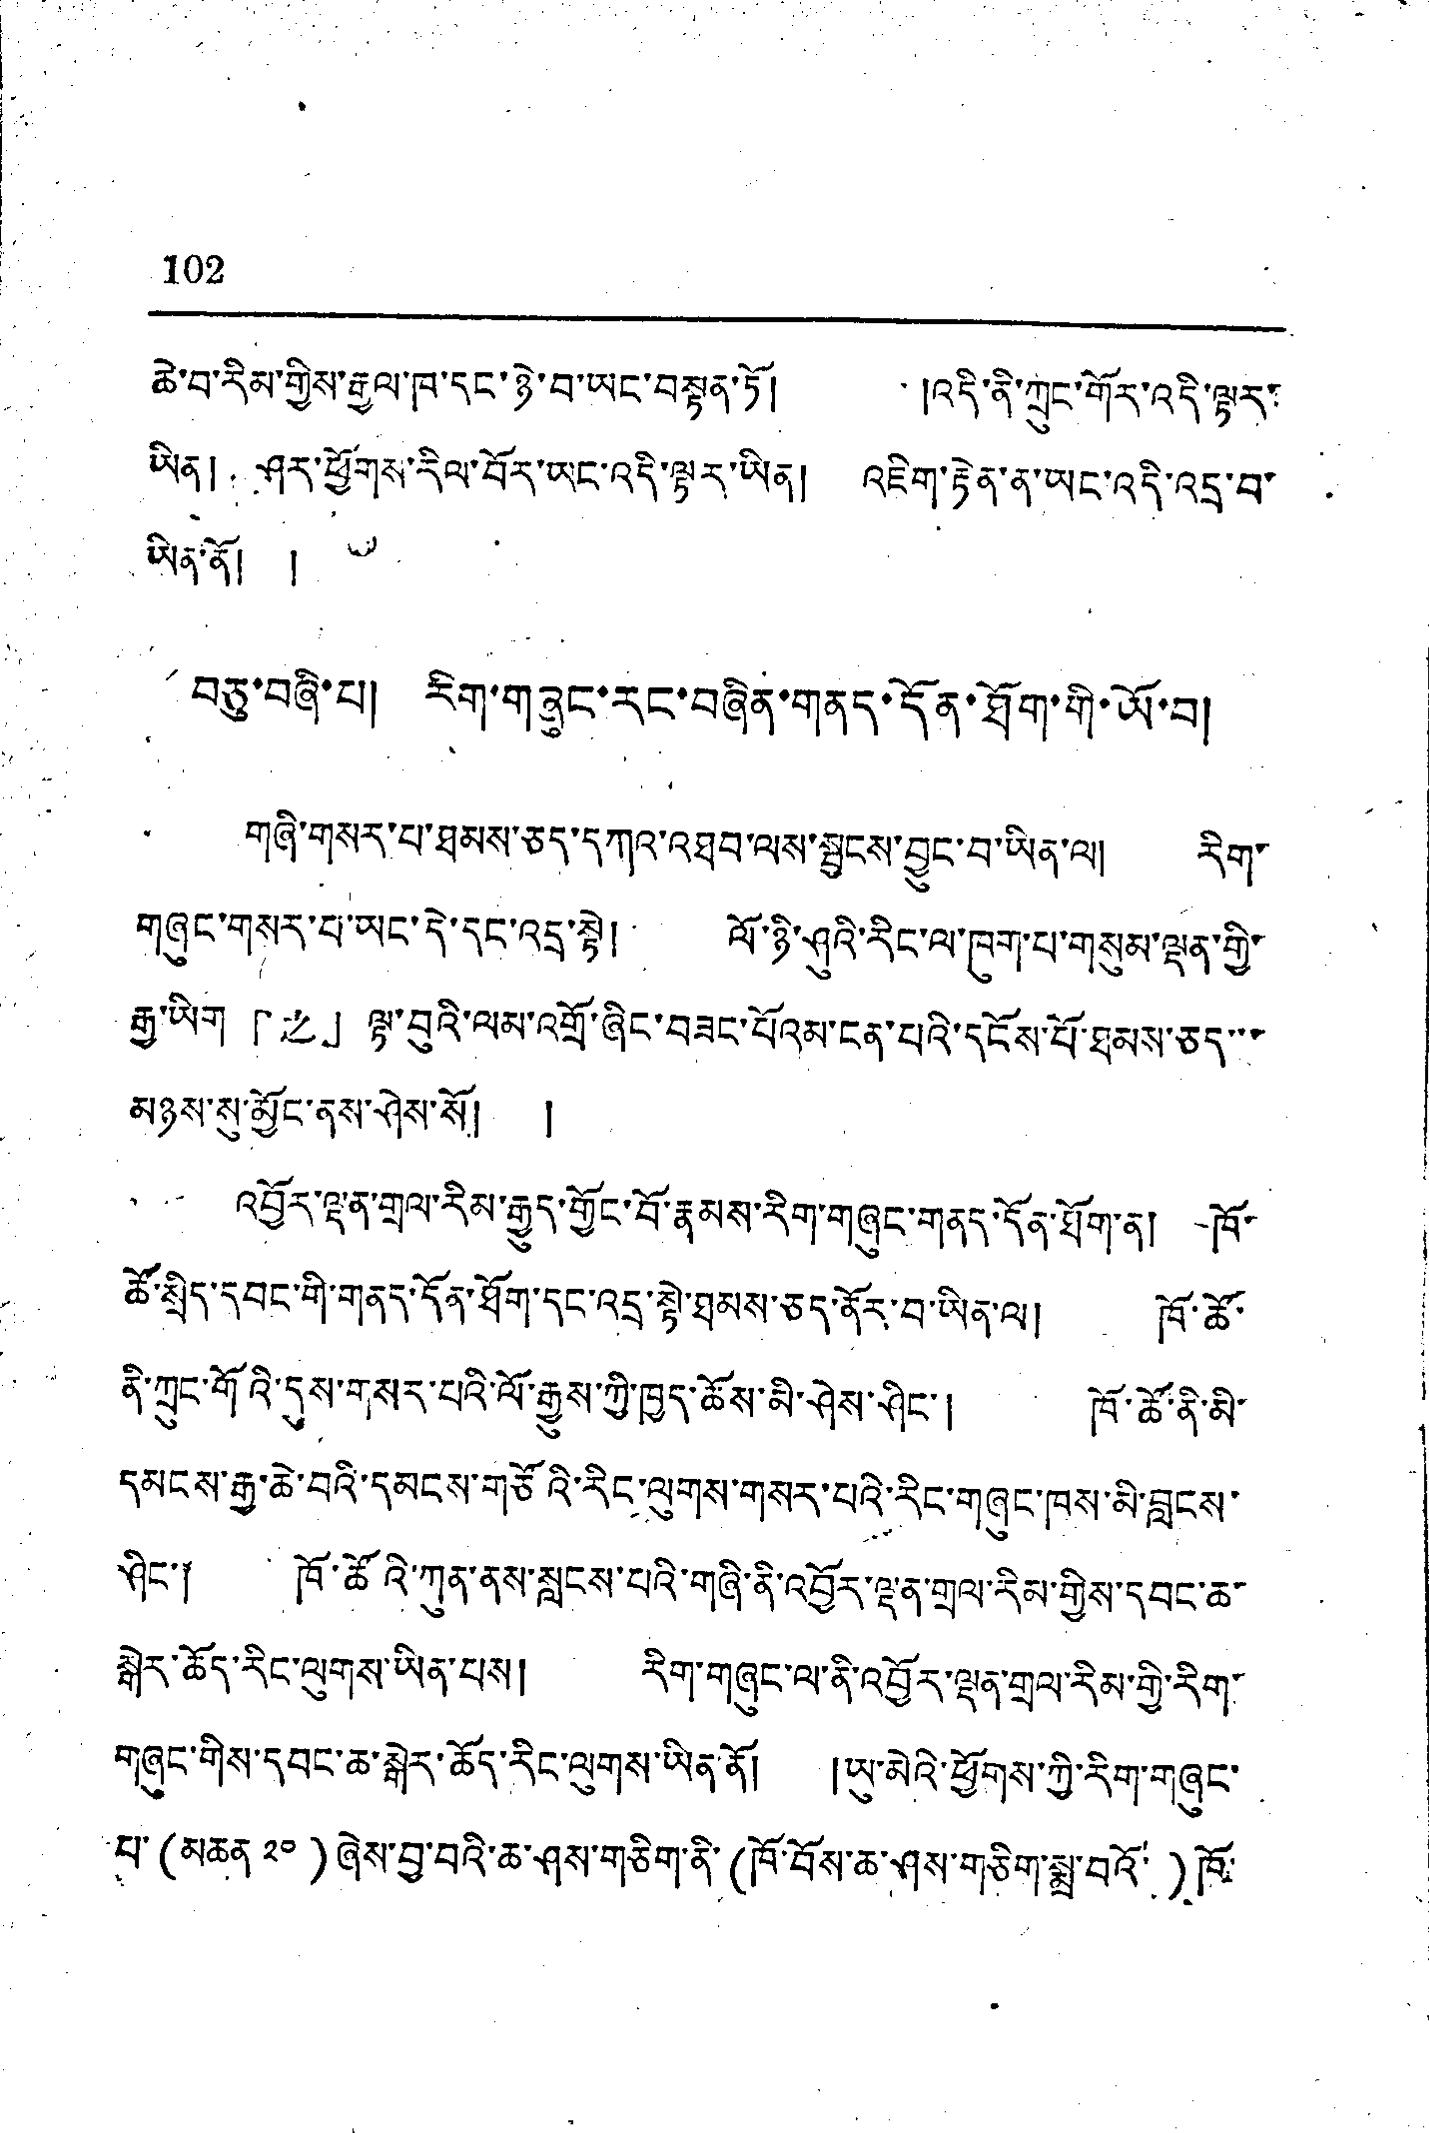102
ཆེ་བ་རིམ་གྱིས་རྒྱལ་ཁ་དང་ཉེ་བ་ཡང་བསྟན་ཏོ། །འདི་ནི་ཀྲུང་གོར་འདི་ལྟར་
ཡིན། ཤར་ཕྱོགས་རིལ་བོར་ཡང་འདི་ལྟར་ཡིན། འཇིག་རྟེན་ན་ཡང་འདི་འདྲ་བ་
ཡིན་ནོ། །
བཅུ་བཞི་པ། རིག་གཞུང་རང་བཞིན་གནད་དོན་ཐོག་གི་ཡོ་བ།
གཞི་གསར་པ་ཐམས་ཅད་དཀའ་འཐབ་ལས་སྦྱངས་བྱུང་བ་ཡིན་ལ། རིག་
གཞུང་གསར་པ་ཡང་དེ་དང་འདྲ་སྟེ། ལོ་ཉི་ཤུའི་རིང་ལ་ཁག་པ་གསུམ་ལྡན་གྱི་
རྒྱ་ཡིག 「之」 ལྟ་བུའི་ལམ་འགྲོ་ཞིང་བཟང་པོའམ་ངན་པའི་དངོས་པོ་ཐམས་ཅད་་་
མཉས་སུ་མྱོང་ནས་ཤེས་སོ། །
འབྱོར་ལྡན་གྲལ་རིམ་རྒྱུད་གྱོང་བོ་རྣམས་རིག་གཞུང་གནད་དོན་ཐོག་ན། ཁོ་
ཚོ་སྲིད་དབང་གི་གནད་དོན་ཐོག་དང་འདྲ་སྟེ་ཐམས་ཅད་ནོར་བ་ཡིན་ལ། ཁོ་ཚོ་
ནི་ཀྲུང་གོའི་དུས་གསར་པའི་ལོ་རྒྱུས་ཀྱི་ཁྱད་ཆོས་མི་ཤེས་ཤིང་། ཁོ་ཚོ་ནི་མི་
དམངས་རྒྱ་ཆེ་བའི་དམངས་གཙོའི་རིང་ལུགས་གསར་པའི་རིང་གཞུང་ཁས་མི་བླངས་
ཤིང་། ཁོ་ཚོའི་ཀུན་ནས་སླངས་པའི་གཞི་ནི་འབྱོར་ལྡན་གྲལ་རིམ་གྱིས་དབང་ཆ་
སྒེར་ཆོད་རིང་ལུགས་ཡིན་པས། རིག་གཞུང་ལ་ནི་འབྱོར་ལྡན་གྲལ་རིམ་གྱི་རིག་
གཞུང་གིས་དབང་ཆ་སྒེར་ཆོད་རིང་ལུགས་ཡིན་ནོ། །ཡུ་མེའི་ཕྱོགས་ཀྱི་རིག་གཞུང་
པ་(མཆན ༢༠)ཞེས་བྱ་བའི་ཆ་ཤས་གཅིག་ནི་(ཁོ་བོས་ཆ་ཤས་གཅིག་སྨྲ་བའོ་)ཁོ་
